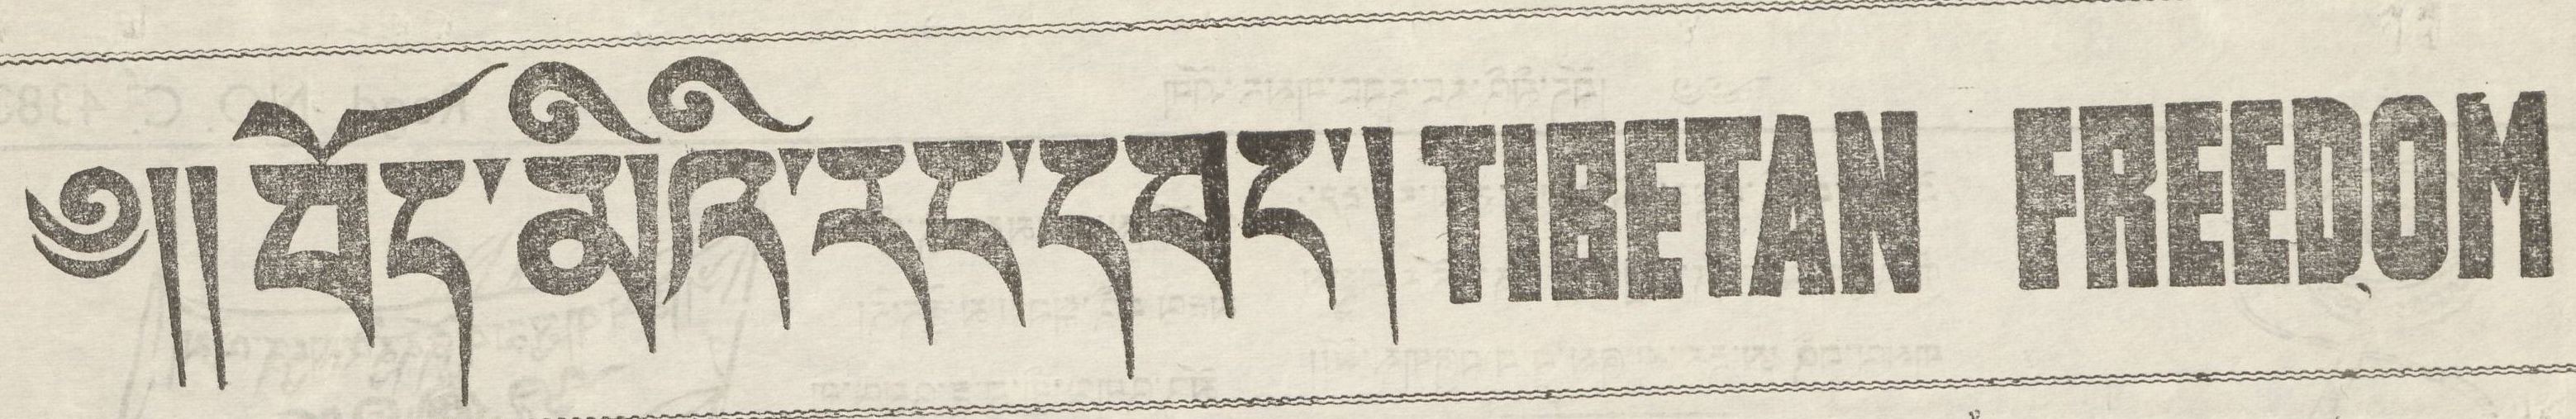༄།། བོད་མིའི་རང་དབང་། TIBETAN FREEDOM
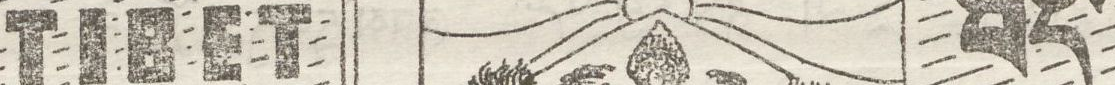TIBET བོད་
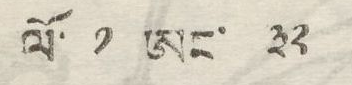ལོ་ ༡ ཨང་ ༣༢
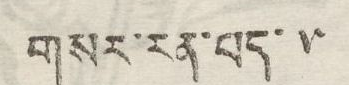གསར་རན་པད་ ༥
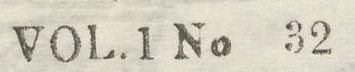VOL. 1 No 32
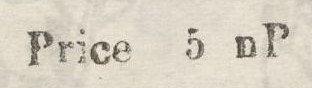Price 5 nP
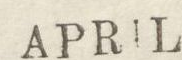APRIL
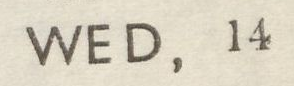WED, 14
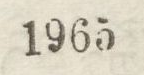1965
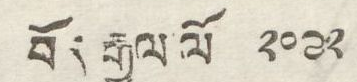བོད་རྒྱལ་ལོ་ ༢༠༩༢
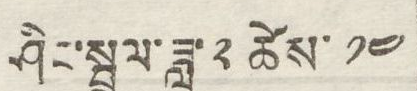ཤིང་སྦྲུལ་ཟླ་༢ ཚེས་ ༡༤
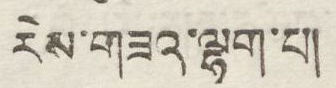རེས་གཟའ་ལྷག་པ།
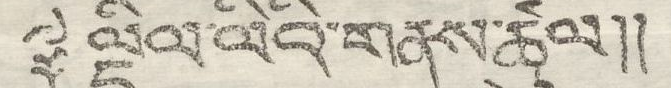༈ ལྡིལ་ལིའི་གནས་ཚུལ།།
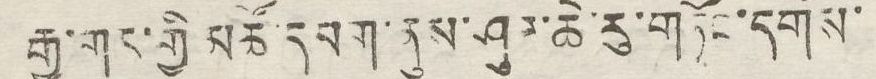རྒྱ་གར་གྱི མཚོ་དམག་ནུས་ཤུཌ་ཆེ་རུ་གཏོང་དགོས་
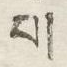པ།
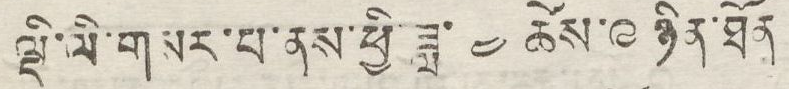ལྡི་ལི་གསར་པ་ནས་ཕྱི་ཟླ་ ༤ ཚེས་༩ ཉིན་ཐོན
